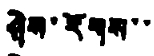ཤེས་རོགས་་
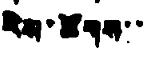རེས་ཚོགས་་
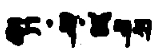ཆུང་གི་ཚོགས
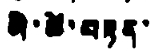མི་ཚེ་བརྟན་
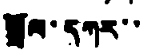སྒྲོལ་དཀར་་
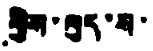གྱིས་ལུད་ས་
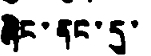ཞིང་ནང་དུ་
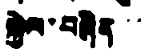སྐྱེལ་བཞིན་་
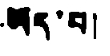ཡོད་པ།
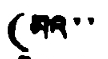(མའ་་
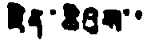ཇིན་ཆིའུས་་
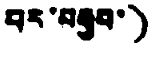པར་བརྒྱབ་)
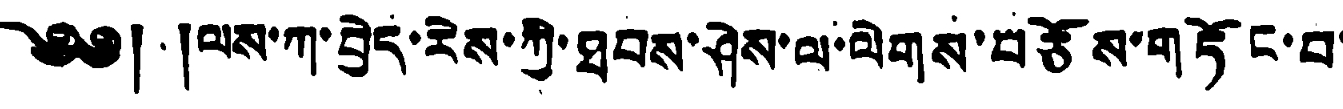༄༅། །ལས་ཀ་བྱེད་རེས་ཀྱི་ཐབས་ཤེས་ལ་ལེགས་བཅོས་གཏོང་བ་
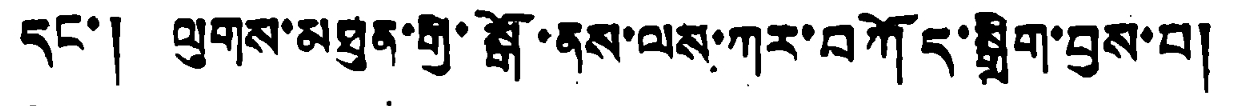དང་། ལུགས་མཐུན་གྱི་སྒོ་ནས་ལས་ཀར་བཀོད་སྒྲིག་བྱས་པ།
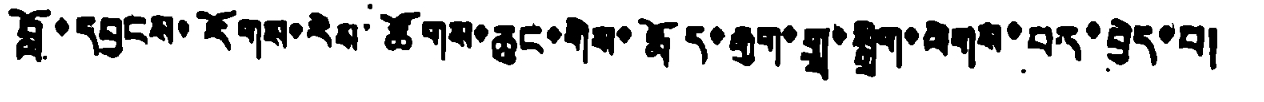བློ་དབྱངས་རོགས་རེས་ཚོགས་ཆུང་གིས་རྨོད་རྒྱག་གྲྭ་སྒྲིག་ལེགས་བར་བྱེད་པ།
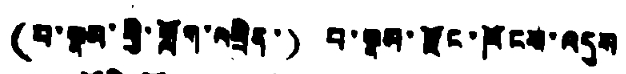(པ་སྣམ་གྱི་བློག་འཕྲིན་) བ་སྣམ་རྫོང་ཁོངས་འདུས
